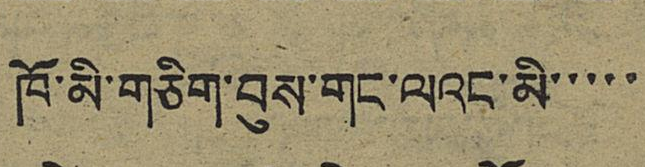ཁོ་མི་གཅིག་བུས་གང་ལའང་མི་་་་་
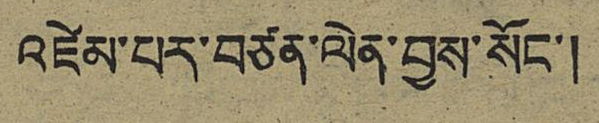འཛེམ་པར་བཙན་ལེན་བྱས་སོང་།
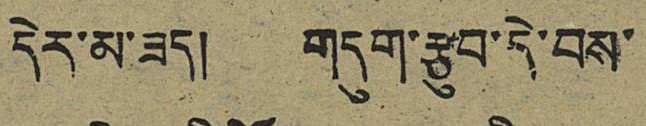དེར་མ་ཟད། གདུག་རྩུབ་དེ་བས་
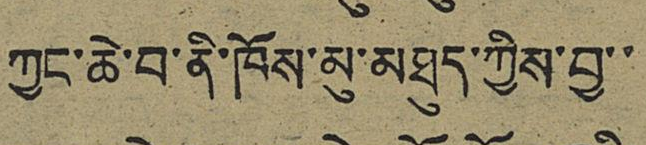ཀྱང་ཆེ་བ་ནི་ཁོས་མུ་མཐུད་ཀྱིས་བྱ་་
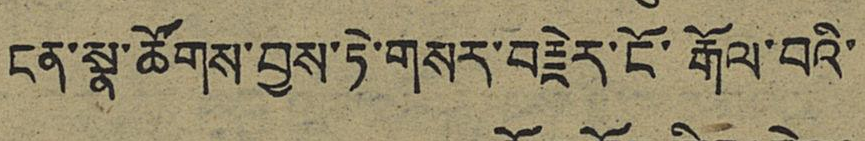ངན་སྣ་ཚོགས་བྱས་ཏེ་གསར་བརྗེར་ངོ་རྒོལ་བའི་
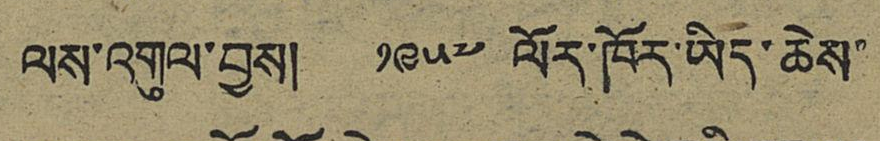ལས་འགུལ་བྱས། ༡༩༥༧ ལོར་ཁོར་ཡིད་ཆེས་
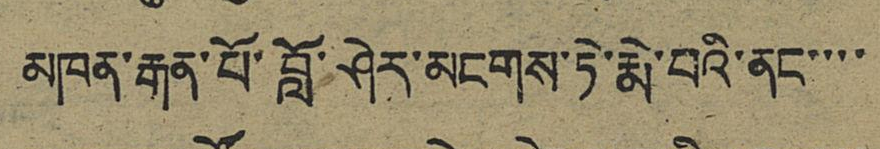མཁན་རྒན་པོ་བློ་ཤེར་མངགས་ཏེ་རྨེ་བའི་ནང་་་་
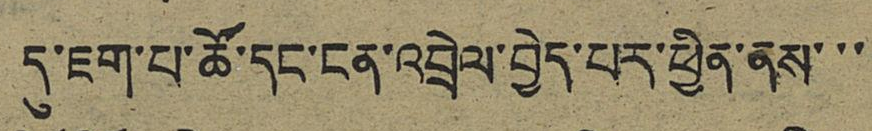དུ་ཇག་པ་ཚོ་དང་ངན་འབྲེལ་བྱེད་པར་ཕྱིན་ནས་་་
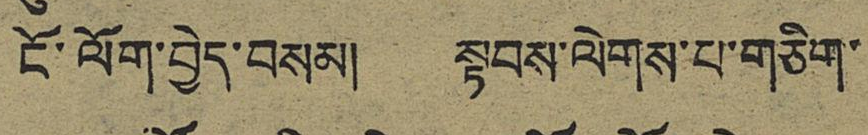ངོ་ལོག་བྱེད་བསམ། སྟབས་ལེགས་པ་གཅིག་
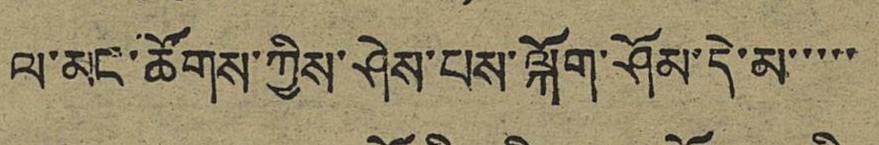ལ་མང་ཚོགས་ཀྱིས་ཤེས་པས་ལྐོག་ཤོམ་དེ་མ་་་་་
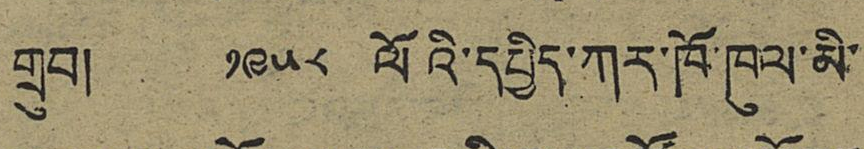གྲུབ། ༡༩༥༨ ལོའི་དཔྱིད་ཀར་ཁོ་ཁུལ་མི་
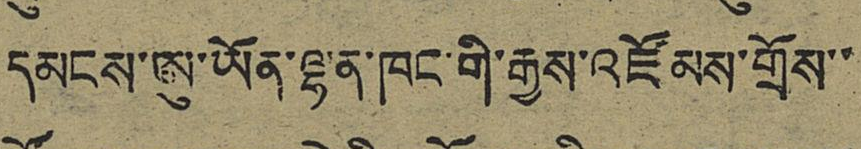དམངས་ཨུ་ཡོན་ལྷན་ཁང་གི་རྒྱས་འཛོམས་གྲོས་་
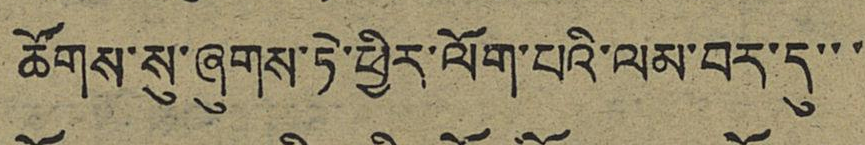ཚོགས་སུ་ཞུགས་ཏེ་ཕྱིར་ལོག་པའི་ལམ་པར་དུ་་་
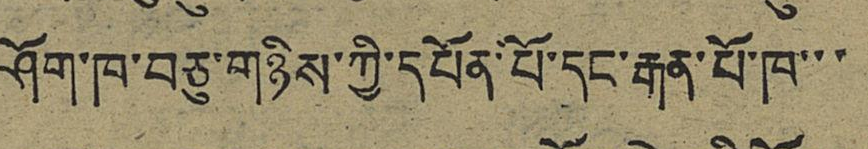ཤོག་ཁ་བཅུ་གཉིས་ཀྱི་དཔོན་པོ་དང་རྒན་པོ་ཁ་་་
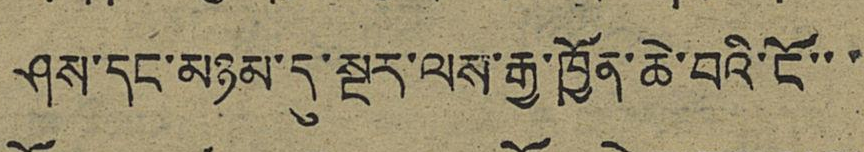ཤས་དང་མཉམ་དུ་སྔར་ལས་རྒྱ་ཁྱོན་ཆེ་བའི་ངོ་་་
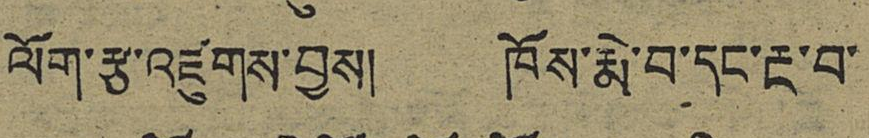ལོག་རྩ་འཛུགས་བྱས། ཁོས་རྨེ་བ་དང་རྔ་བ་
